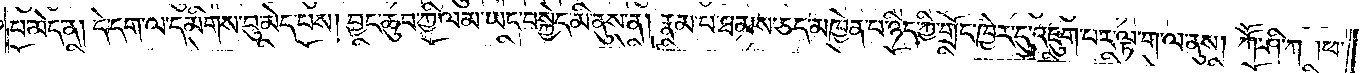པ་མེད་ན། དེ་དག་ལ་དམིགས་བུ་མེད་པས། བྱང་ཆུབ་ཀྱི་ལམ་ཡང་བསྐྱེད་མི་ནུས་ན། རྣམ་པ་ཐམས་ཅད་མཁྱེན་པ་ཉིད་ཀྱི་གྲོང་ཁྱེར་དུ་འཇུག་པར་ལྟ་ག་ལ་ནུས། ཀཽ་ཤི་ཀ། ཕ་
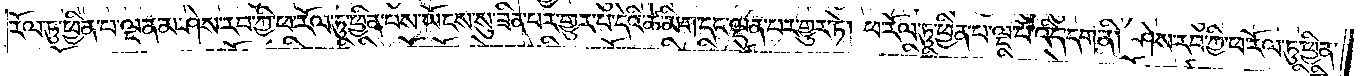རོལ་ཏུ་ཕྱིན་པ་ལྔ་ནམ་ཤེས་རབ་ཀྱི་ཕ་རོལ་ཏུ་ཕྱིན་པས་ཡོངས་སུ་ཟིན་པར་གྱུར་པ་དེའི་ཚེ་མིག་དང་ལྡན་པར་གྱུར་ཏེ། ཕ་རོལ་ཏུ་ཕྱིན་པ་ལྔ་པོ་འདི་དག་ནི། ཤེས་རབ་ཀྱི་ཕ་རོལ་ཏུ་ཕྱིན་
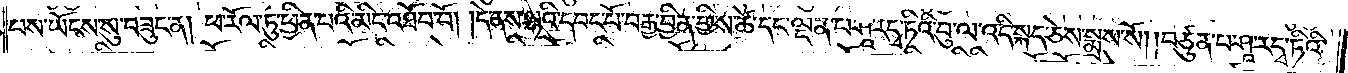པས་ཡོངས་སུ་བཟུང་ན། ཕ་རོལ་ཏུ་ཕྱིན་པའི་མིང་འཐོབ་བོ། །དེ་ནས་ལྷའི་དབང་པོ་བརྒྱ་བྱིན་གྱིས་ཚེ་དང་ལྡན་པ་ཤཱ་ར་དྭ་ཏིའི་བུ་ལ་འདི་སྐད་ཅེས་སྨྲས་སོ། །བཙུན་པ་ཤཱ་ར་དྭ་ཏིའི་
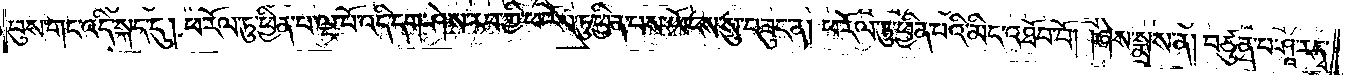བུས་གང་འདི་སྐད་དུ། ཕ་རོལ་ཏུ་ཕྱིན་པ་ལྔ་པོ་འདི་དག་ཤེས་རབ་ཀྱི་ཕ་རོལ་ཏུ་ཕྱིན་པས་ཡོངས་སུ་བཟུང་ན། ཕ་རོལ་ཏུ་ཕྱིན་པའི་མིང་འཐོབ་པོ། །ཞེས་སྨྲས་ན། བཙུན་པ་ཤཱ་ར་དྭ་
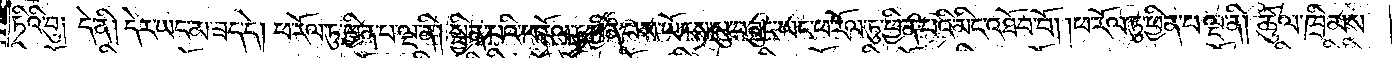ཏིའི་བུ༑ དེ་ནི། དེར་ཡང་མ་ཟད་དེ། ཕ་རོལ་ཏུ་ཕྱིན་པ་ལྔ་ནི། སྦྱིན་པའི་ཕ་རོལ་ཏུ་ཕྱིན་པས་ཡོངས་སུ་བཟུང་ཡང་ཕ་རོལ་ཏུ་ཕྱིན་པའི་མིང་འཐོབ་བོ། །ཕ་རོལ་ཏུ་ཕྱིན་པ་ལྔ་ནི། ཚུལ་ཁྲིམས་
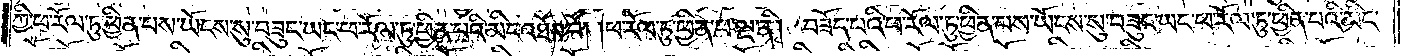ཀྱི་ཕ་རོལ་ཏུ་ཕྱིན་པས་ཡོངས་སུ་བཟུང་ཡང་ཕ་རོལ་ཏུ་ཕྱིན་པའི་མིང་འཐོབ་བོ། །ཕ་རོལ་ཏུ་ཕྱིན་པ་ལྔ་ནི། བཟོད་པའི་ཕ་རོལ་ཏུ་ཕྱིན་པས་ཡོངས་སུ་བཟུང་ཡང་ཕ་རོལ་ཏུ་ཕྱིན་པའི་མིང་
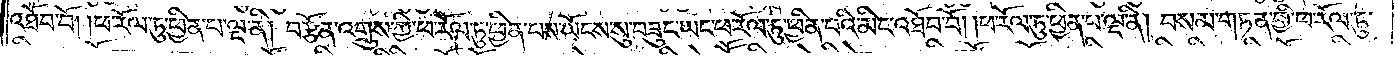འཐོབ་བོ། །ཕ་རོལ་ཏུ་ཕྱིན་པ་ལྔ་ནི། བརྩོན་འགྲུས་ཀྱི་ཕ་རོལ་ཏུ་ཕྱིན་པས་ཡོངས་སུ་བཟུང་ཡང་ཕ་རོལ་ཏུ་ཕྱིན་པའི་མིང་འཐོབ་བོ། །ཕ་རོལ་ཏུ་ཕྱིན་པ་ལྔ་ནི། བསམ་གཏན་གྱི་ཕ་རོལ་ཏུ་
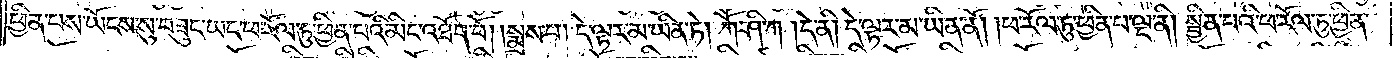ཕྱིན་པས་ཡོངས་སུ་བཟུང་ཡང་ཕ་རོལ་ཏུ་ཕྱིན་པའི་མིང་འཐོབ་བོ། །སྨྲས་པ། དེ་ལྟར་མ་ཡིན་ཏེ། ཀཽ་ཤི་ཀ། དེ་ནི། དེ་ལྟར་མ་ཡིན་ནོ། །ཕ་རོལ་ཏུ་ཕྱིན་པ་ལྔ་ནི། སྦྱིན་པའི་ཕ་རོལ་ཏུ་ཕྱིན་
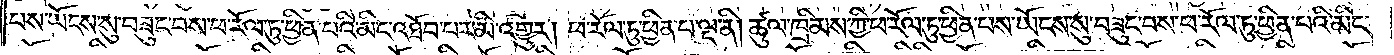པས་ཡོངས་སུ་བཟུང་བས་ཕ་རོལ་ཏུ་ཕྱིན་པའི་མིང་འཐོབ་པར་མི་འགྱུར། ཕ་རོལ་ཏུ་ཕྱིན་པ་ལྔ་ནི། ཚུལ་ཁྲིམས་ཀྱི་ཕ་རོལ་ཏུ་ཕྱིན་པས་ཡོངས་སུ་བཟུང་བས་ཕ་རོལ་ཏུ་ཕྱིན་པའི་མིང་
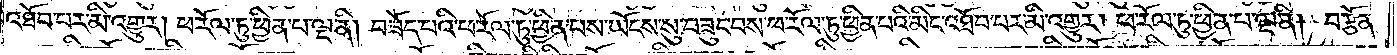འཐོབ་པར་མི་འགྱུར། ཕ་རོལ་ཏུ་ཕྱིན་པ་ལྔ་ནི། བཟོད་པའི་ཕ་རོལ་ཏུ་ཕྱིན་པས་ཡོངས་སུ་བཟུང་བས་ཕ་རོལ་ཏུ་ཕྱིན་པའི་མིང་འཐོབ་པར་མི་འགྱུར། ཕ་རོལ་ཏུ་ཕྱིན་པ་ལྔ་ནི། བརྩོན་
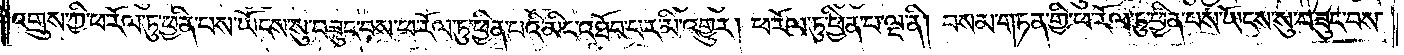འགྲུས་ཀྱི་ཕ་རོལ་ཏུ་ཕྱིན་པས་ཡོངས་སུ་བཟུང་བས་ཕ་རོལ་ཏུ་ཕྱིན་པའི་མིང་འཐོབ་པར་མི་འགྱུར། ཕ་རོལ་ཏུ་ཕྱིན་པ་ལྔ་ནི། བསམ་གཏན་གྱི་ཕ་རོལ་ཏུ་ཕྱིན་པས་ཡོངས་སུ་བཟུང་བས་
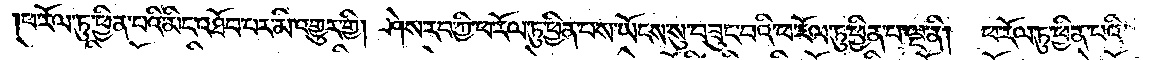ཕ་རོལ་ཏུ་ཕྱིན་པའི་མིང་འཐོབ་པར་མི་འགྱུར་གྱི། ཤེས་རབ་ཀྱི་ཕ་རོལ་ཏུ་ཕྱིན་པས་ཡོངས་སུ་བཟུང་བའི་ཕ་རོལ་ཏུ་ཕྱིན་པ་ལྔ་ནི། ཕ་རོལ་ཏུ་ཕྱིན་པའི་
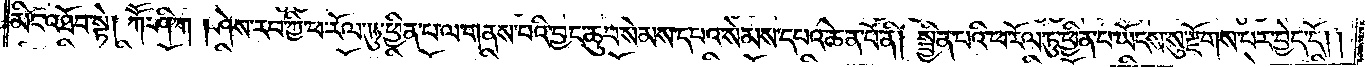མིང་འཐོབ་སྟེ། ཀཽ་ཤི་ཀ། ཤེས་རབ་ཀྱི་ཕ་རོལ་ཏུ་ཕྱིན་པ་ལ་གནས་པའི་བྱང་ཆུབ་སེམས་དཔའ་སེམས་དཔའ་ཆེན་པོ་ནི། སྦྱིན་པའི་ཕ་རོལ་ཏུ་ཕྱིན་པ་ཡོངས་སུ་རྫོགས་པར་བྱེད་དོ། །
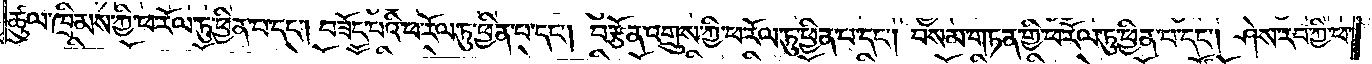ཚུལ་ཁྲིམས་ཀྱི་ཕ་རོལ་ཏུ་ཕྱིན་པ་དང༌། བཟོད་པའི་ཕ་རོལ་ཏུ་ཕྱིན་པ་དང༌། བརྩོན་འགྲུས་ཀྱི་ཕ་རོལ་ཏུ་ཕྱིན་པ་དང༌། བསམ་གཏན་གྱི་ཕ་རོལ་ཏུ་ཕྱིན་པ་དང༌། ཤེས་རབ་ཀྱི་ཕ་
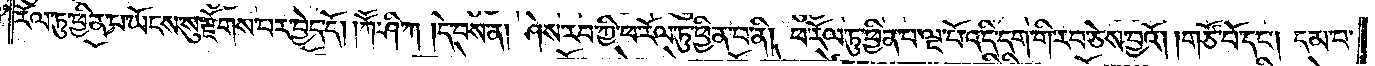རོལ་ཏུ་ཕྱིན་པ་ཡོངས་སུ་རྫོགས་པར་བྱེད་དོ། །ཀཽ་ཤི་ཀ། དེ་བས་ན། ཤེས་རབ་ཀྱི་ཕ་རོལ་ཏུ་ཕྱིན་པ་ནི། ཕ་རོལ་ཏུ་ཕྱིན་པ་ལྔ་པོ་འདི་དག་གི་རབ་ཅེས་བྱའོ། །གཙོ་བོ་དང༌། དམ་པ་
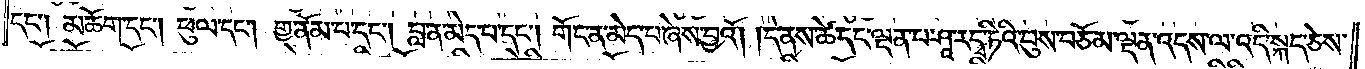དང༌། མཆོག་དང༌། ཕུལ་དང༌། གྱ་ནོམ་པ་དང༌། བླ་ན་མེད་པ་དང༌། གོང་ན་མེད་པ་ཞེས་བྱའོ། །དེ་ནས་ཚེ་དང་ལྡན་པ་ཤཱ་ར་དྭ་ཏིའི་བུས་བཅོམ་ལྡན་འདས་ལ་འདི་སྐད་ཅེས་
